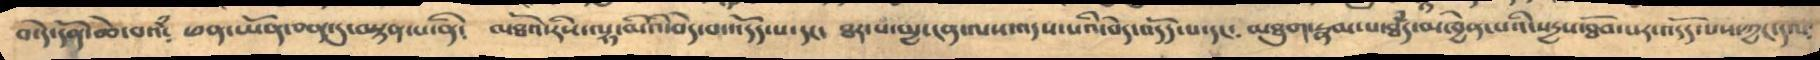བ་དེ་དོན་ཆེ་བའཾ༴ ཕན་ཡོན་བན་དུ་བསྟན་པ་ནི༴ མཐོའ་རིས་ལྷ་མིའི་བདེ་པ་འདོད་པ་དང་ ཐར་པ་མྱ་ངན་ལས་འདས་པའི་བདེ་འདོད་པ་དང་ མཐུག་རྣམ་པ་ཐཾད་མཁྱེན་པའི་སདྱས་ཐོབ་པར་འདོད་པས་ཀྱང་དལ
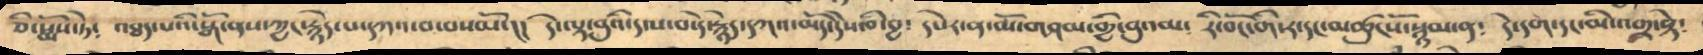ཅི་སྨོས་ཏེ༴ འཐད་པའི་སྒོ་ནས་ཀྱང་རྙེད་པ་དཀའ་བ་བསམོ་།། དེ་ལྟ་བུའི་དལ་པ་དེ་རྙེད་དཀའ་མོད་དེས་མི་བྱ༴ དཔེར་ན་མོ་གཤམ་གྱི་བུ་དང་  རི་བོང་གི་ར་དང་མཚུངསོ་སྙམ་ན༴ དེ་དག་དང་མི་འགྲ་སྟེ༴
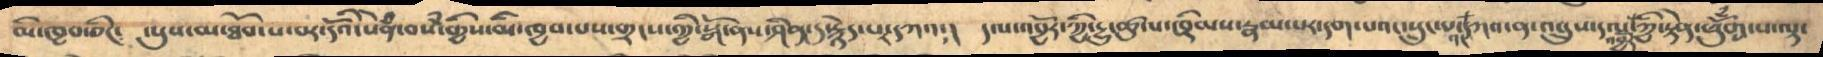མི་ཁྱབ་ཅིང་ ལུས་མ་ཐོབ་པ་བར་དོའི་སེཾན་བསཾ་གྱིས་མི་ཁྱབ་པས་གྲངས་ཀྱི་སྒོ་ནས་ཤིན་ཏུ་རྙེད་པར་དཀའ་། དལ་འབྱོར་ཀྱི་རྱུ་ཚུལ་ཁྲིམས་རྣམ་པར་དག་པའང་སྲུང་པ་དཀའ་ན་འབྲུས་དལ་ཀྱི་རྟེན་ཕོུཾག་པ་ལྟ་
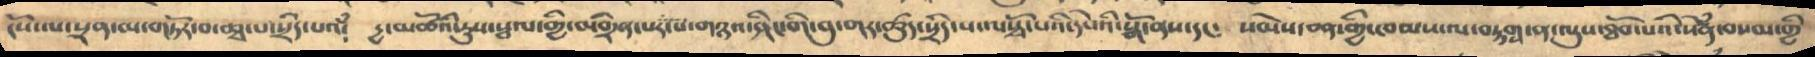ངོས་ལ་སྲན་མ་གཏོར་བ་ཆྭ་པ་སྲིད་པའཾ༴ དྱ་མཚོའི་རུས་སྦལ་གྱི་མགྲིན་པར་ས་གཉའ་ཤིང་གི་བུ་གར་ཚུད་སྲིད་པ་ལསྭོ་པའི་དཔེའི་སྒོ་ནས་དང༴ སེམས་ཅན་གྱི་ཁམས་ལ་བརྟག་ན་ལུས་ཐོབ་པའི་སེཾན་བསམ་གྱི
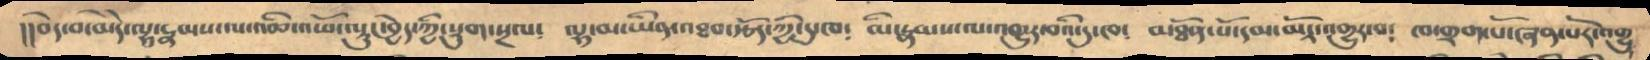།།བདེ་བ་མེདེ་ལྷ་རྣམས་ལ་འཆི་འཕོ་ལྟུང་བྱེད་ཀྱི་སྡུག་སྔལ་ ལྷ་མ་ཡིན་འཐབ་རྩོད་ཀྱི་དུ་ཁ༴ མི་རྣམས་ལ་འགྱུར་བའི་དུ་ཁ༴ མཐོན་པོ་དམ་མོར་འགྱུར་བ༴ ཁ་གྲག་པོ་ཞན་པོར་འགྱུ
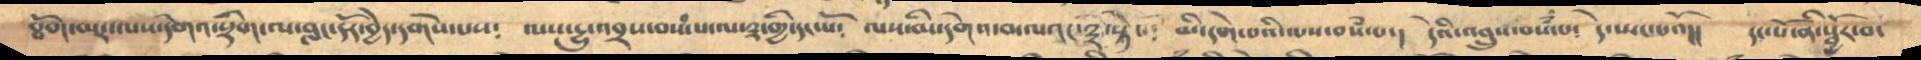ཐོག་མར་ལས་དགེའ་སྡིག་ལ་བླང་དོར་བྱེད་དགོས་པས༴ ལས་རྱུ་འབྲས་བསཾ་པ་ལ་༣་གྱི་དང་པོ༴ ལས་མི་དགེའ་བ་ལའང་༣་སྟེ་ མི་དགེ་པའི་ལས་བསཾ་པ་། དེའི་འབྲུས་བསཾ་པ༴ དེ་ཡང་པའོ།། དང་པོ་ནི་སྦྱོར་བ་
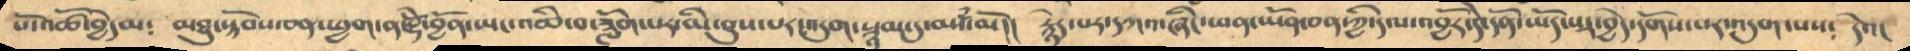པོ་འཚོ་བྱེད་མ༴ མཐུ་སྟོབས་ཅན་ཕྱག་ན་རྡོེ་བྱོན་ཡང་འཆི་བ་ཟློག་པར་མི་ནུས་པར་འདུག་སྙམ་དུ་བསཾ་མོ།། རྙེད་པར་དཀའ་ཞིང་ཕན་ཡོན་ཅན་ཀྱི་དལ་འབྱོར་དེ་དོན་ཡོད་པར་བྱེད་དགོས་པར་འདུག་པས༴ དེའང
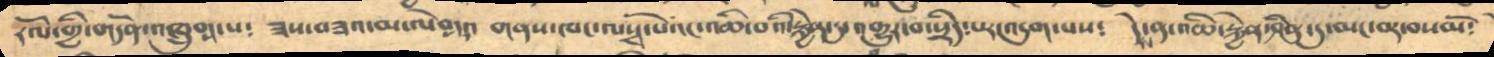རོལ་གྱི་གདོན་འཁྲུགས་པ༴  ཟས་བཟའ་མ་ལེབདའ་ གནས་ཁང་ལསྭོ་པོའང་འཆི་བའི་རྐྱེན་དུ་འགྱུར་བ་སྲིད་པར་འདུག་པས༴  དེས་ན་འཆི་རྐྱེན་ཤིན་དུ་མང་བར་བས་མོ༴
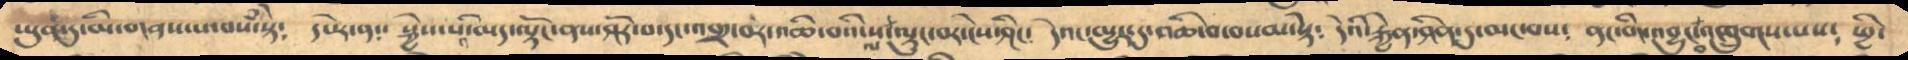ཡུན་དུ་མི་གནས་པ་བསཾ་སྟེ༴  དཔར་ན་  སྐྱེས་པ་མེད་ལྟོང་ནས་ཤོར་བ་དང་འགྲ་བར་འཆི་བའི་ལས་ལྟུང་པར་ངེས་ཤིང་  དེའང་མྱུར་དུ་འཆི་བ་བསམ་སྟེ༴ དེའི་རྐྱེན་ཤིན་ཏུ་མང་པས༴  ནང་གི་འབྱུང་བ་འཁྲུགས་པས༴ཕྱི་
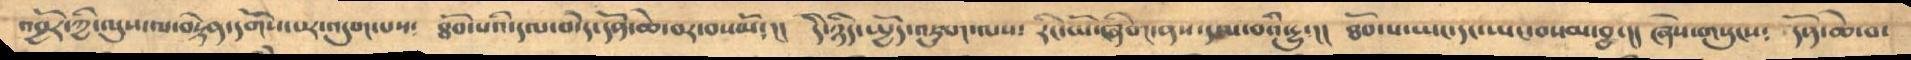འབྱོར་ཀྱི་ལུས་ལ་བརྟེན་དགོས་པར་འདུག་པས༴ ཐོབ་པའི་དལ་མེད་དོན་ཆེ་བར་བསམོ།། དེ་ཉིད་སྤྱོད་འཇུག་ལས༴ རིང་མོ་ཞིག་ནས་དལ་བའི་རྱུ་།། ཐོབ་པ་ཡང་དང་ཡང་བསམ་བྱུང་།། ཞེས་གསུངས༴ དོན་ཆེ་བ་
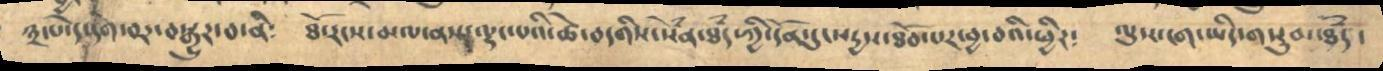༣་པ་དེ་དགེ་བར་བསྒྱུར་བ་ནི༴ ཐོ་རངས་མལ་ནས་ལྡང་པའི་ཚེ་བདགིས་སེཾན་ཐཾད་ཀྱི་དོན་དུ་སདྱས་ཐོབ་པར་བྱ་བའི་ཕྱིར༴ ལུས་ངག་ཡིད་གསུམ་ཐཾད་
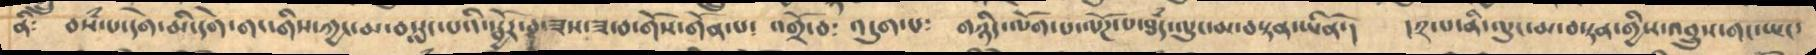ནི༴ བསཾ་པ་དགེ་མི་དགེ་གང་གིས་ཀྱང་མ་བསླང་པའི་སྦྱོར་བ་ཟས་ཟ་བ་གོས་གོན་པ༴ འགྲོ་བ༴ འདུག་པ༴ གཉིད་ལོག་པ་ལོཌ་པ་ཐཾད་ལུང་མ་བསྟན་ཡིནོ་། །༢་པ་ནི་ལུང་མ་བསྟན་གྱིས་འབྲུས་གང་ཡང་
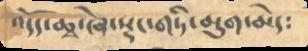འདོད་ཆྭ་ཞེ་སྡང་གཏི་མུག་མེད༴
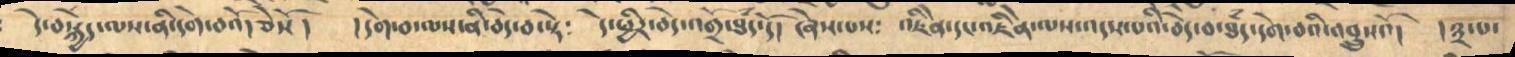དེ་བསྐྱེད་ལས་ནི་དགེ་བའོ་ཅེསོ། །དགེ་བ་ལས་ནི་བདེ་བ་སྟེ༴ དེ་ཕྱིར་བདེ་འགྲོ་ཐཾད་དོ། ཞེས་པས༴ འཇིེན་དང་འཇིེན་ལས་འདས་པའི་བདེ་བ་ཐཾད་དགེ་བའི་འབྲུསའོ། །༣་པ་
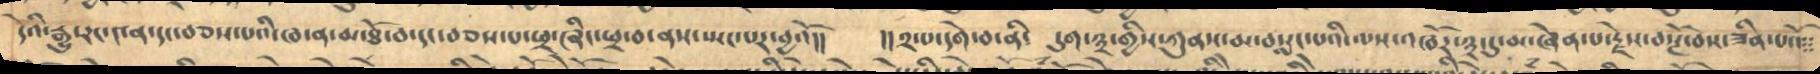དེའི་རྒྱུ་རང་༤ན་དང་བཅས་པའི་ཁ་ན་མ་ཐོ་བ་དང་བཅས་པ་ཕྲ་ཞིང་ཕྲ་བ་ནས་སྤང་པར་བྱའོ།། །།༢་པ་དགེ་བ་ནི༴ དུག་༣་གྱིས་ཀུནས་མ་བསླང་པའི་ལས་འཁོར་༣་དུ་མ་ཞེན་པ་རྗེས་བསྔོ་བས་ཟིན་པའོ
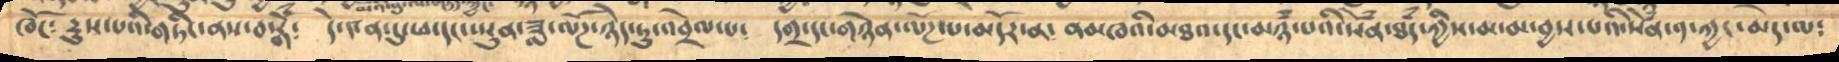ཁོང༴ རུས་པའི་གཏིང་ནས་བསྒོཾ༴ དེ་༤ན་དུ་ཕ་དང་སྤུན་ཟླ་ལོཌ་ཉེད་ཏུ་འབྲེལ་པ་ དགྲ་དང་གཉེན་ལོཌ་པ་མདོར་ན་ནམཁའི་མཐའ་དང་མཉཾ་པའི་སེཾན་ཐཾད་ཀྱིས་མ་མ་བྱས་པའི་སེཾན་༡་ཀྱང་མེད་ལ༴
